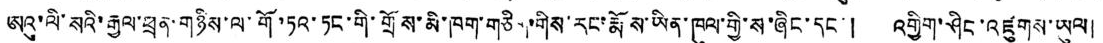ཨའུ་ལི་སའི་རྒྱལ་ཕྲན་གཉིས་ལ་གོ་ཏའ་ཏང་གི་གྲོས་མི་ཁག་གཅིག་གིས་རང་རྨོས་ཡིན་ཁུལ་གྱི་ས་ཞིང་དང་། འགྱིག་ཤིང་འཛུགས་ཡུལ།
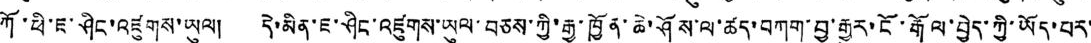ཀོ་ཕི་ཇ་ཤིང་འཛུགས་ཡུལ། དེ་མིན་ཇ་ཤིང་འཛུགས་ཡུལ་བཅས་ཀྱི་རྒྱ་ཁྱོན་ཆེ་ཤོས་ལ་ཚད་བཀག་བྱ་རྒྱུར་ངོ་རྒོལ་བྱེད་ཀྱི་ཡོད་པར་
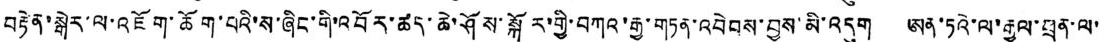བརྟེན་སྒེར་ལ་འཇོག་ཆོག་པའི་ས་ཞིང་གི་འབོར་ཚད་ཆེ་ཤོས་སྐོར་གྱི་བཀའ་རྒྱ་གཏན་འབེབས་བྱས་མི་འདུག ཨན་ཏའེ་ལ་རྒྱལ་ཕྲན་ལ་
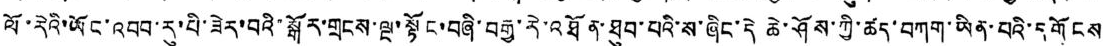ལོ་རེའི་ཡོང་འབབ་རུ་པི་ཟེར་བའི་སྒོར་གྲངས་ལྔ་སྟོང་བཞི་བརྒྱ་རེ་འཐོན་ཐུབ་པའི་ས་ཞིང་དེ ཆེ་ཤོས་ཀྱི་ཚད་བཀག་ཡིན་པའི་དགོངས
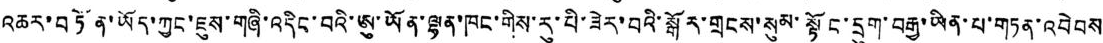འཆར་བཏོན་ཡོད་ཀྱང་ཇུས་གཞི་འདིང་བའི་ཨུ་ཡོན་ལྷན་ཁང་གིས་རུ་པི་ཟེར་བའི་སྒོར་གྲངས་སུམ་སྟོང་དྲུག་བརྒྱ་ཡིན་པ་གཏན་འབེབས
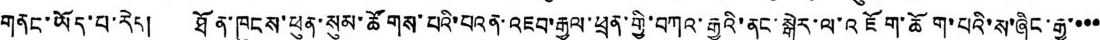གནང་ཡོད་པ་རེད། ཐོན་ཁུངས་ཕུན་སུམ་ཚོགས་པའི་པའན་འཇབ་རྒྱལ་ཕྲན་གྱི་བཀའ་རྒྱའི་ནང་སྒེར་ལ་འཇོག་ཆོག་པའི་ས་ཞིང་རྒྱ་་་་
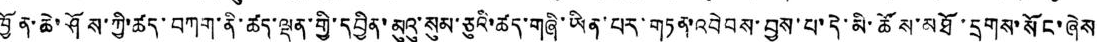ཁྱོན་ཆེ་ཤོས་ཀྱི་ཚད་བཀག་ནི་ཚད་ལྡན་གྱི་དབྱིན་མུའུ་སུམ་ཅུའི་ཚད་གཞི་ཡིན་པར་གཏན་འབེབས་བྱས་པ་དེ་མི་ཚོས་མཐོ་དྲགས་སོང་ཞེས
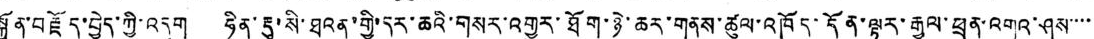སྐྱོན་བརྗོད་བྱེད་ཀྱི་འདུག ཧིན་རྡུ་སི་ཐའན་གྱི་དར་ཆའི་གསར་འགྱུར་ཐོག་ཉེ་ཆར་གནས་ཚུལ་འཁོད་དོན་ལྟར་རྒྱལ་ཕྲན་འགའ་ཤས་་་་
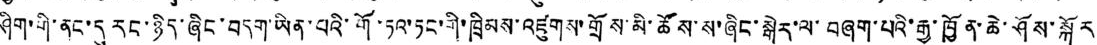ཤིག་གི་ནང་དུ རང་ཉིད་ཞིང་བདག་ཡིན་པའི་གོ་ཏའ་ཏང་གི་ཁྲིམས་འཛུགས་གྲོས་མི་ཚོས་ས་ཞིང་སྒེར་ལ་བཞག་པའི་རྒྱ་ཁྱོན་ཆེ་ཤོས་སྐོར
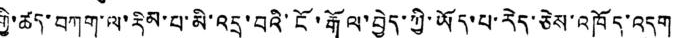གྱི་ཚད་བཀག་ལ་རིམ་པ་མི་འདྲ་བའི་ངོ་རྒོལ་བྱེད་ཀྱི་ཡོད་པ་རེད་ཅེས་འཁོད་འདུག
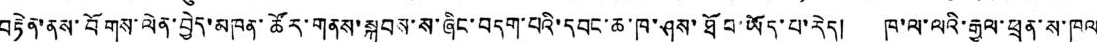བརྟེན་ནས་བོགས་ལེན་བྱེད་མཁན་ཚོར་གནས་སྐབས་ས་ཞིང་བདག་པའི་དབང་ཆ་ཁག་ཤས་ཐོབ་ཡོད་པ་རེད། ཁ་ལ་ལའི་རྒྱལ་ཕྲན་ས་ཁུལ
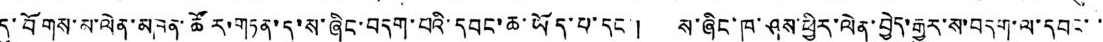དུ་བོགས་མ་ལེན་མཁན་ཚོར་གཏན་དུ་ས་ཞིང་བདག་པའི་དབང་ཆ་ཡོད་པ་དང་། ས་ཞིང་ཁ་ཤས་ཕྱིར་ལེན་བྱེད་རྒྱུར་ས་བདག་ལ་དབང་་
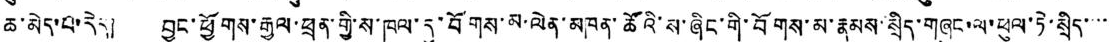ཆ་མེད་པ་རེད། བྱང་ཕྱོགས་རྒྱལ་ཕྲན་གྱི་ས་ཁུལ་དུ་བོགས་མ་ལེན་མཁན་ཚོའི་ས་ཞིང་གི་བོགས་མ་རྣམས་སྲིད་གཞུང་ལ་ཕུལ་ཏེ་སྲིད་་་་
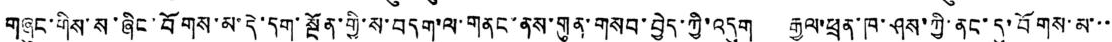གཞུང་གིས་ས་ཞིང་བོགས་མ་དེ་དག་སྔོན་གྱི་ས་བདག་ལ་གནང་ནས་གུན་གསབ་བྱེད་ཀྱི་འདུག རྒྱལ་ཕྲན་ཁ་ཤས་ཀྱི་ནང་དུ་བོགས་མ་་་
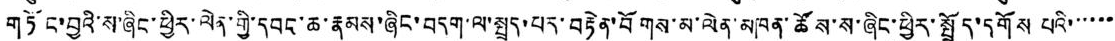གཏོང་བྱའི་ས་ཞིང་ཕྱིར་ལེན་གྱི་དབང་ཆ་རྣམས་ཞིང་བདག་ལ་སྤྲད་པར་བརྟེན་བོགས་མ་ལེན་མཁན་ཚོས་ས་ཞིང་ཕྱིར་སྤྲོད་དགོས པའི་་་་་་
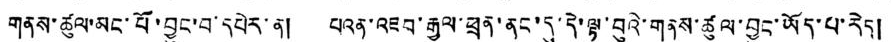གནས་ཚུལ་མང་པོ་བྱུང་བ་དཔེར་ན། པའན་འཇབ་རྒྱལ་ཕྲན་ནང་དུ་དེ་ལྟ་བུའི་གནས་ཚུལ་བྱུང་ཡོད་པ་རེད།
